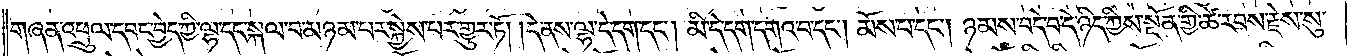གཞན་འཕྲུལ་དབང་བྱེད་ཀྱི་ལྷ་དང་སྐལ་བ་མཉམ་པར་སྐྱེས་པར་གྱུར་ཏོ། །དེ་ནས་ལྷ་དེ་དག་དང༌། མི་དེ་དག་དགའ་བ་དང༌། མོས་པ་དང༌། ཉམས་བདེ་བ་དེ་ཉིད་ཀྱིས་སྔོན་གྱི་ཚེ་རབས་རྗེས་སུ་
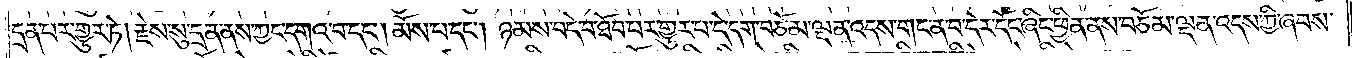དྲན་པར་གྱུར་ཏེ། རྗེས་སུ་དྲན་ནས་ཀྱང་དགའ་བ་དང༌། མོས་པ་དང༌། ཉམས་བདེ་བ་ཐོབ་པར་གྱུར་པ་དེ་དག་བཅོམ་ལྡན་འདས་གང་ན་བ་དེར་དོང་ཞིང་ཕྱིན་ནས་བཅོམ་ལྡན་འདས་ཀྱི་ཞབས་
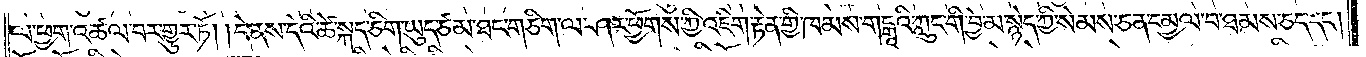ལ་ཕྱག་འཚལ་བར་གྱུར་ཏོ། །དེ་ནས་དེའི་ཚེ་སྐད་ཅིག་ཡུད་ཙམ་ཐང་གཅིག་ལ་ཤར་ཕྱོགས་ཀྱི་འཇིག་རྟེན་གྱི་ཁམས་གངྒཱའི་ཀླུང་གི་བྱེ་མ་སྙེད་ཀྱི་སེམས་ཅན་དམྱལ་བ་ཐམས་ཅད་དང༌།
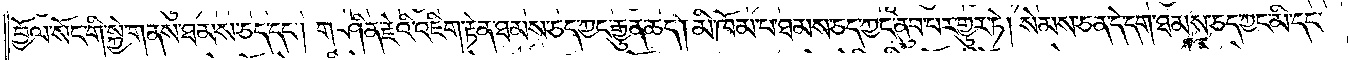བྱོལ་སོང་གི་སྐྱེ་གནས་ཐམས་ཅད་དང༌། གཤིན་རྗེའི་འཇིག་རྟེན་ཐམས་ཅད་ཀྱང་རྒྱུན་ཆད། མི་ཁོམ་པ་ཐམས་ཅད་ཀྱང་ནུབ་པར་གྱུར་ཏེ། སེམས་ཅན་དེ་དག་ཐམས་ཅད་ཀྱང་མི་དང་
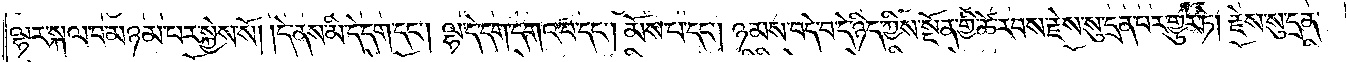ལྷར་སྐལ་བ་མཉམ་པར་སྐྱེས་སོ། །དེ་ནས་མི་དེ་དག་དང༌། ལྷ་དེ་དག་དགའ་བ་དང༌། མོས་པ་དང༌། ཉམས་བདེ་བ་དེ་ཉིད་ཀྱིས་སྔོན་གྱི་ཚེ་རབས་རྗེས་སུ་དྲན་པར་གྱུར་ཏེ། རྗེས་སུ་དྲན་
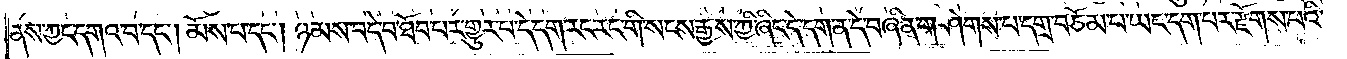ནས་ཀྱང་དགའ་བ་དང༌། མོས་པ་དང༌། ཉམས་བདེ་བ་ཐོབ་པར་གྱུར་པ་དེ་དག་རང་རང་གི་སངས་རྒྱས་ཀྱི་ཞིང་དེ་དག་ན་དེ་བཞིན་གཤེགས་པ་དགྲ་བཅོམ་པ་ཡང་དག་པར་རྫོགས་པའི་
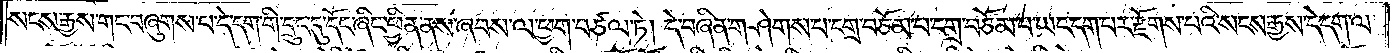སངས་རྒྱས་གང་བཞུགས་པ་དེ་དག་གི་དྲུང་དུ་དོང་ཞིང་ཕྱིན་ནས་ཞབས་ལ་ཕྱག་བཙལ་ཏེ། དེ་བཞིན་གཤེགས་པ་དགྲ་བཅོམ་པ་དགྲ་བཅོམ་པ་ཡང་དག་པར་རྫོགས་པའི་སངས་རྒྱས་དེ་དག་ལ་
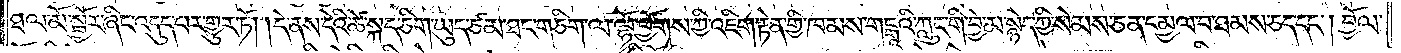ཐལ་མོ་སྦྱོར་ཞིང་འདུད་པར་གྱུར་ཏོ། །དེ་ནས་དེའི་ཚེ་སྐད་ཅིག་ཡུད་ཙམ་ཐང་གཅིག་ལ་ལྷོ་ཕྱོགས་ཀྱི་འཇིག་རྟེན་གྱི་ཁམས་གངྒཱའི་ཀླུང་གི་བྱེ་མ་སྙེད་ཀྱི་སེམས་ཅན་དམྱལ་བ་ཐམས་ཅད་དང༌། བྱོལ་
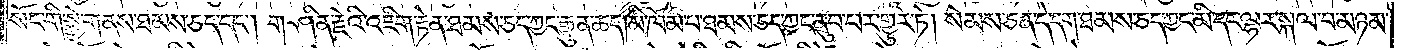སོང་གི་སྐྱེ་གནས་ཐམས་ཅད་དང༌། གཤིན་རྗེའི་འཇིག་རྟེན་ཐམས་ཅད་ཀྱང་རྒྱུན་ཆད། མི་ཁོམ་པ་ཐམས་ཅད་ཀྱང་ནུབ་པར་གྱུར་ཏེ། སེམས་ཅན་དེ་དག་ཐམས་ཅད་ཀྱང་མི་དང་ལྷར་སྐལ་བ་མཉམ་
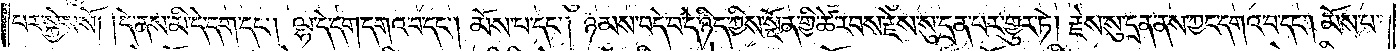པར་སྐྱེས་སོ། །དེ་ནས་མི་དེ་དག་དང༌། ལྷ་དེ་དག་དགའ་བ་དང༌། མོས་པ་དང༌། ཉམས་བདེ་བ་དེ་ཉིད་ཀྱིས་སྔོན་གྱི་ཚེ་རབས་རྗེས་སུ་དྲན་པར་གྱུར་ཏེ། རྗེས་སུ་དྲན་ནས་ཀྱང་དགའ་བ་དང༌། མོས་པ་
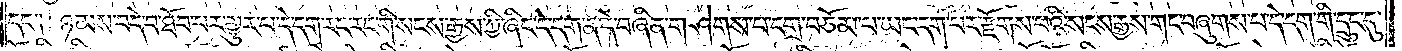དང་༑ ཉམས་བདེ་བ་ཐོབ་པར་གྱུར་པ་དེ་དག་རང་རང་གི་སངས་རྒྱས་ཀྱི་ཞིང་དེ་དག་ན་དེ་བཞིན་གཤེགས་པ་དགྲ་བཅོམ་པ་ཡང་དག་པར་རྫོགས་པའི་སངས་རྒྱས་གང་བཞུགས་པ་དེ་དག་གི་དྲུང་དུ་
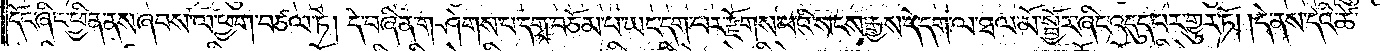དོང་ཞིང་ཕྱིན་ནས་ཞབས་ལ་ཕྱག་བཙལ་ཏེ། དེ་བཞིན་གཤེགས་པ་དགྲ་བཅོམ་པ་ཡང་དག་པར་རྫོགས་པའི་སངས་རྒྱས་དེ་དག་ལ་ཐལ་མོ་སྦྱོར་ཞིང་འདུད་པར་གྱུར་ཏོ། །དེ་ནས་དེའི་ཚེ་
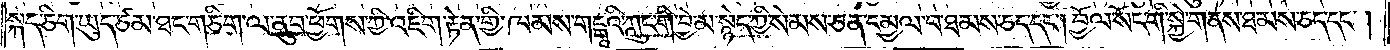སྐད་ཅིག་ཡུད་ཙམ་ཐང་གཅིག་ལ་ནུབ་ཕྱོགས་ཀྱི་འཇིག་རྟེན་གྱི་ཁམས་གངྒཱའི་ཀླུང་གི་བྱེ་མ་སྙེད་ཀྱི་སེམས་ཅན་དམྱལ་བ་ཐམས་ཅད་དང༌། བྱོལ་སོང་གི་སྐྱེ་གནས་ཐམས་ཅད་དང༌།
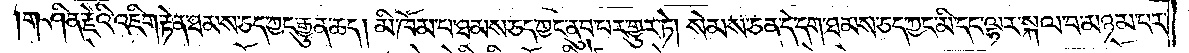གཤིན་རྗེའི་འཇིག་རྟེན་ཐམས་ཅད་ཀྱང་རྒྱུན་ཆད། མི་ཁོམ་པ་ཐམས་ཅད་ཀྱང་ནུབ་པར་གྱུར་ཏེ། སེམས་ཅན་དེ་དག་ཐམས་ཅད་ཀྱང་མི་དང་ལྷར་སྐལ་བ་མཉམ་པར་
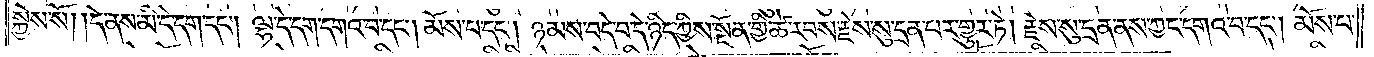སྐྱེས་སོ། །དེ་ནས་མི་དེ་དག་དང༌། ལྷ་དེ་དག་དགའ་བ་དང༌། མོས་པ་དང༌། ཉམས་བདེ་བ་དེ་ཉིད་ཀྱིས་སྔོན་གྱི་ཚེ་རབས་རྗེས་སུ་དྲན་པར་གྱུར་ཏེ། རྗེས་སུ་དྲན་ནས་ཀྱང་དགའ་བ་དང༌། མོས་པ་
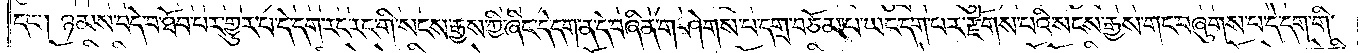དང༌། ཉམས་བདེ་བ་ཐོབ་པར་གྱུར་པ་དེ་དག་རང་རང་གི་སངས་རྒྱས་ཀྱི་ཞིང་དེ་དག་ན་དེ་བཞིན་གཤེགས་པ་དགྲ་བཅོམ་པ་ཡང་དག་པར་རྫོགས་པའི་སངས་རྒྱས་གང་བཞུགས་པ་དེ་དག་གི་
